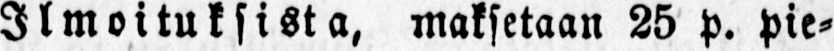Ilmoituksista, maksetaan 25 p. pie-
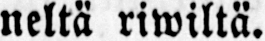neltä riwiltä.
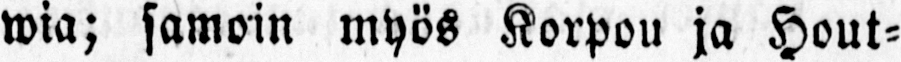wia; samoin myös Korpou ja Hout-
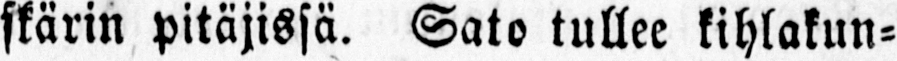skärin pitäjissä. Sato tullee kihlakun-
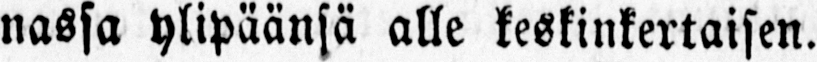nassa ylipäänsä alle keskinkertaisen.
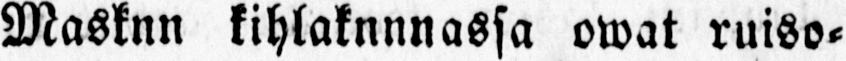Masknn kihlaknnnassa owat ruiso-
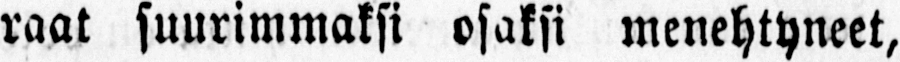raat suurimmaksi osaksi menehtyneet,
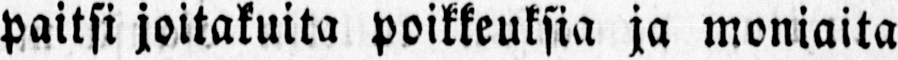paitsi joitakuita poikkeuksia ja moniaita
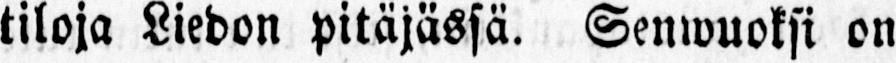tiloja Liedon pitäjässä. Senwuoksi on
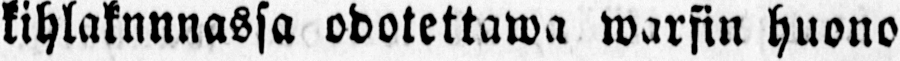kihlaknnnassa odotettawa warsin huono
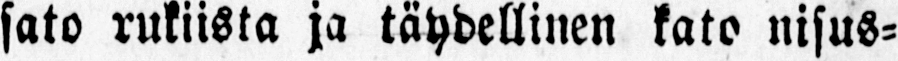sato rukiista ja täydellinen kato nisus-
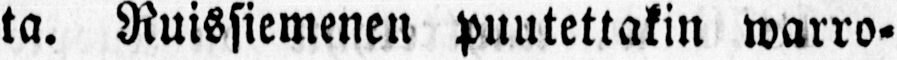ta. Ruissiemenen puutettakin warro-
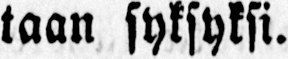taan syksyksi.
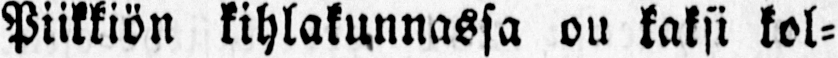Piikkiön kihlakunnassa on kaksi kol-
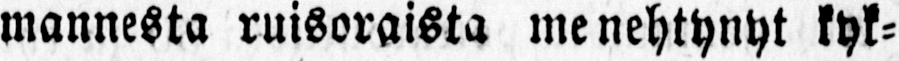mannesta ruisoraista menehtynyt kyk-
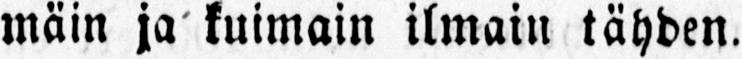mäin ja kuimain ilmain tähden.
